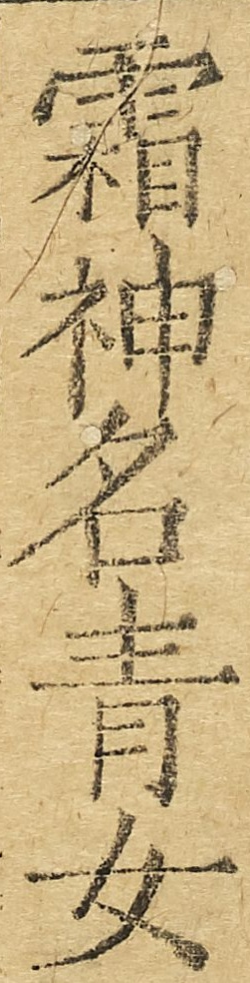霜神名青女
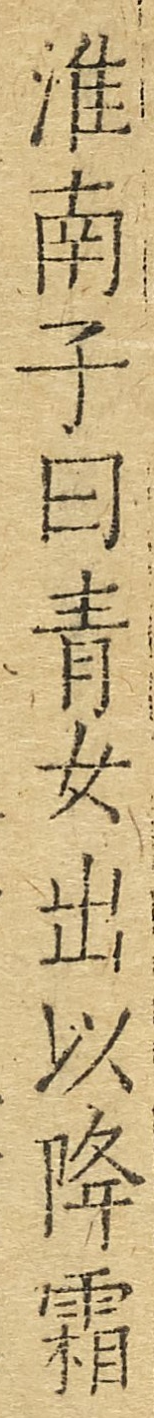淮南子曰青女出以降霜
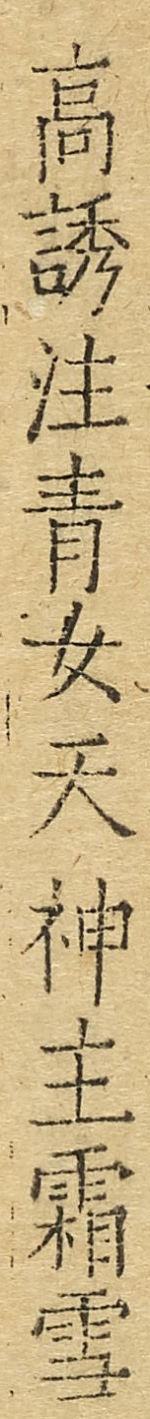高誘注青女天神主霜雪
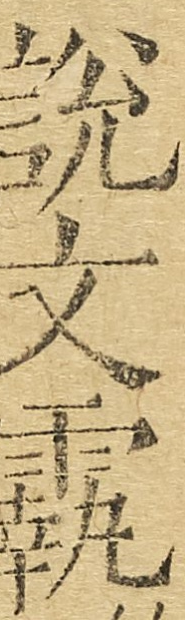說文𩅀
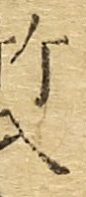竹入
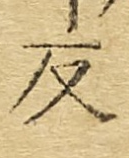反
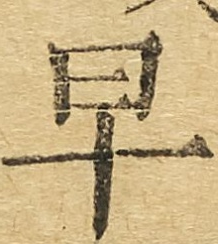早
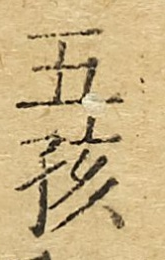五孩
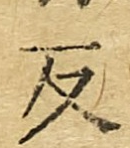反
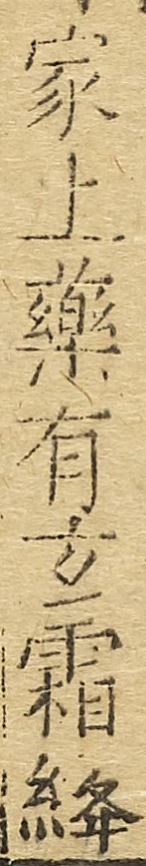家上藥有玄霜絳
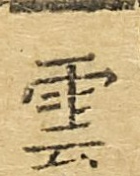雲
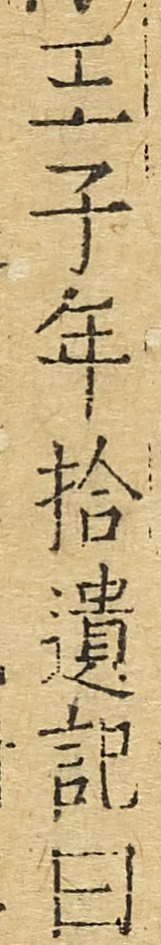王子年拾遺記曰
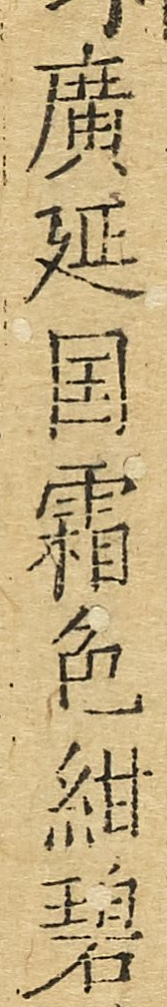廣延國霜色紺碧
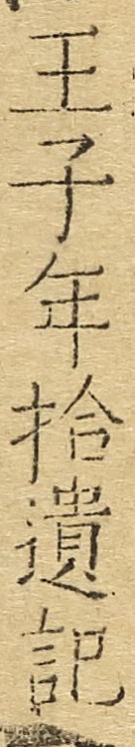王子年拾遺記
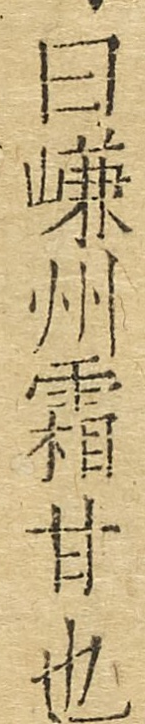曰嵰州霜甘也
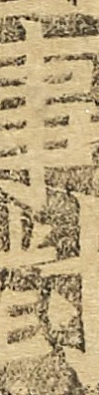事對
